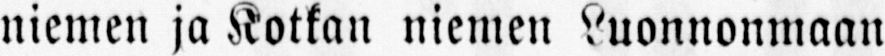niemen ja Kotkan niemen Luonnonmaan
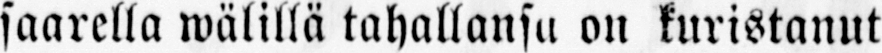saarella wälillä tahallansa on kuristanut
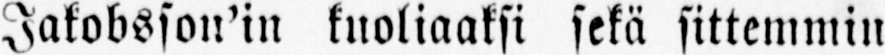Jakobsson’in kuoliaaksi sekä sittemmin
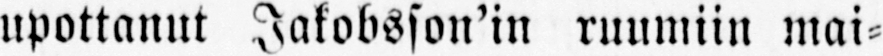upottanut Jakobsson’in ruumiin mai-
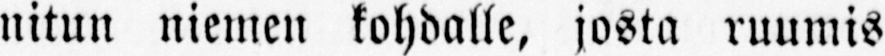nitun niemen kohdalle, josta ruumis
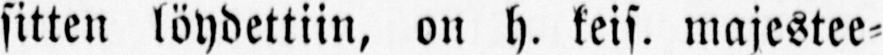sitten löydettiin, on h. keis. majestee-
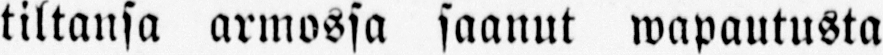tiltansa armossa saanut wapautusta
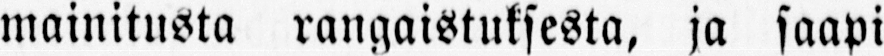mainitusta rangaistuksesta, ja saapi
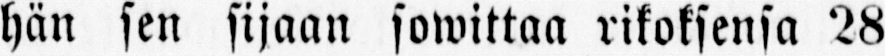hän sen sijaan sowittaa rikoksensa 28
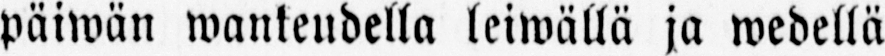päiwän wankeudella leiwällä ja wedellä
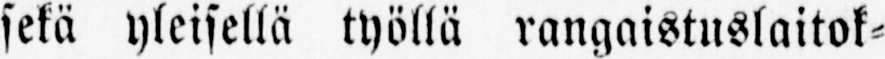sekä yleisellä työllä rangaistuslaitok-
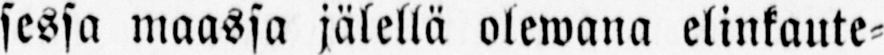sessa maassa jälellä olewana elinkaute-
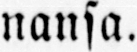nansa.
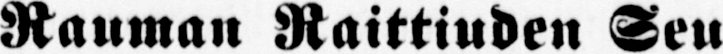— Rauman Raittiuden Seu-
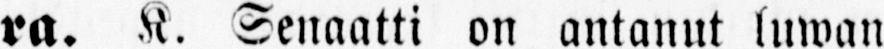ra. K. Senaatti on antanut luwan
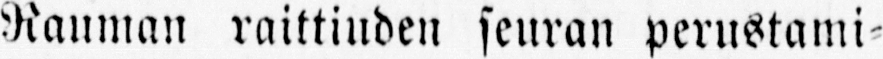Rauman raittiuden seuran perustami-
